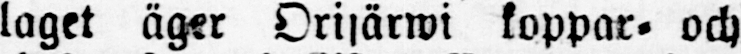laget äger Orijärwi koppar- och
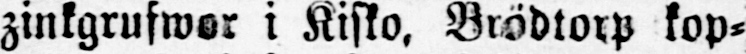zinkgrufwor i Kisko, Brödtorp kop-
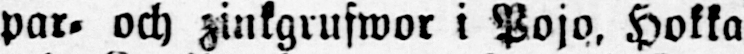par- och zinkgrufwor i Pojo, Hokka
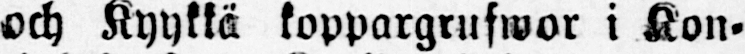och Kyykkä koppargrufwor i Kon-
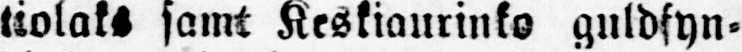tiolaks samt Keskiaurinko guldfyn-
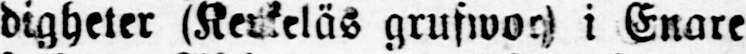digheter (Kerkeläs grufwor.) i Enare
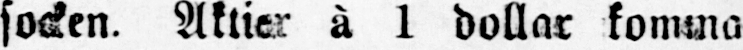socken. Aktier à 1 dollar komma
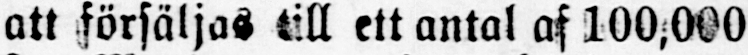att försäljas till ett antal af100,000
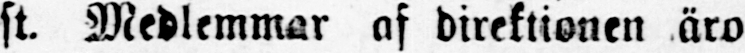st. Medlemmar af direktionen äro
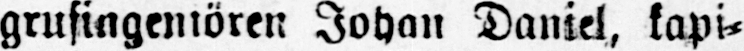grufingeniören Johan Daniel, kapi-
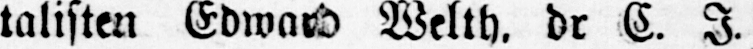talisten Edward Welth, dr C. I.
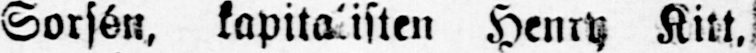Sorsén, kapitalisten Henry Kitt,
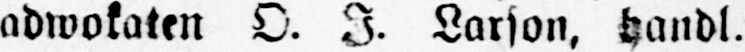adwokaten O. I. Larson, handl.
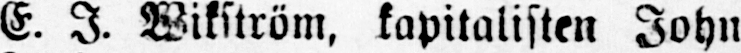E. I. Wikström, kapitalisten John
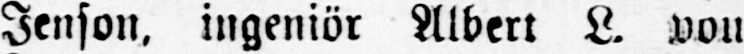Jenson, ingeniör Albert L. von
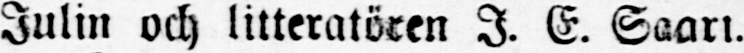Julin och litteratören I. E. Saari.
